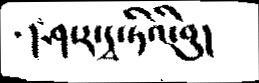།ཤ་ར་དྭ་ཏིའི་བུ།
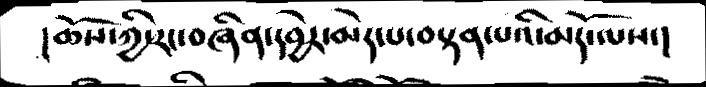།ཆོས་ཀྱི་རང་བཞིན་དབྱེར་མེད་པ་བསྟན་པའི་མདོ་ལས་།
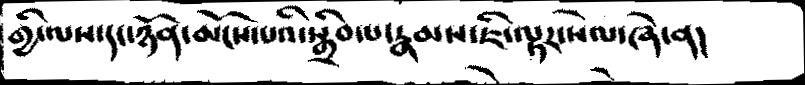གྱི་ལས་དང་ཉོན་མོངས་པའི་སྒྲིབ་པ་རྣམས་ཇི་ལྟར་སེལ་ཞེ་ན།
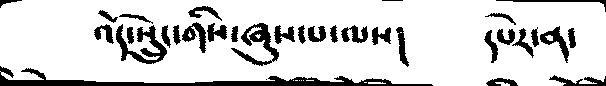འོད་སྲུང་གིས་ཞུས་པ་ལས།    དཔེར་ན་
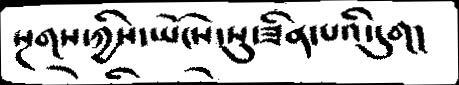སྔགས་ཀྱིས་ཡོངས་སུ་ཟིན་པའི་དུག།
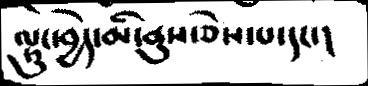ལྟུང་བྱེད་མི་ནུས་ཅེས་པ་དང་།
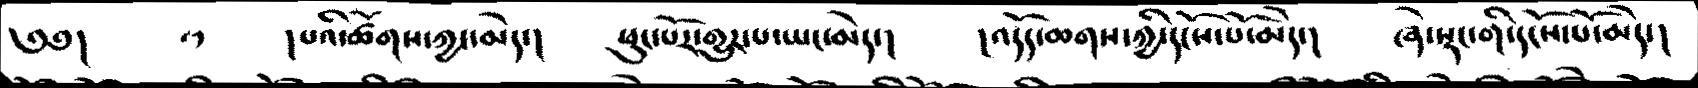༄༅།   ༴    །པའི་ཚོགས་ཀྱང་མེད་།   ཕུང་པོར་གྱུར་པ་ཡང་མེད་།   །འདོད་ཆགས་ཀྱི་དངོས་པོ་མེད་།   ཞེ་སྡང་གི་དངོས་པོ་མེད་།
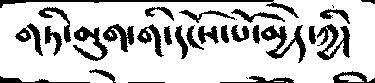གཏི་མུག་གི་དངོས་པོ་མྱེད་ཀྱི།
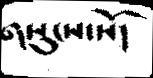གསུངས་སོ།
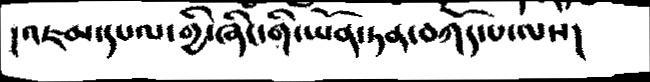།འཇམ་དཔལ་གྱི་ཞིང་གི་ཡོན་ཏན་བཀོད་པ་ལས།
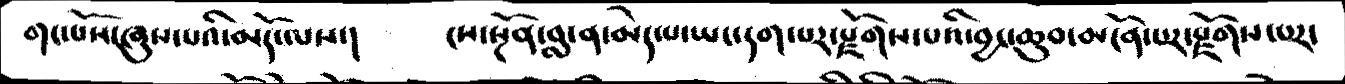གང་པོས་ཞུས་པའི་མདོ་ལས་།   ངས་སྔོན་བླ་ན་མེད་པ་ཡང་དག་པར་རྫོགས་པའི་བྱང་ཆུབ་མངོན་པར་རྫོགས་པར་
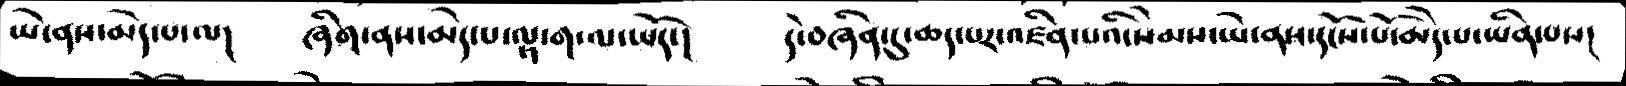ཡེ་ནས་མེད་པ་ལ།   ཞིག་ནས་མེད་པ་ལྟ་ག་ལ་ཡོད་།   དེ་བཞིན་དུ་ཆད་པར་འཛིན་པའི་སེམས་ཡེ་ནས་དངོས་པོ་མེད་པ་ཡིན་པས།
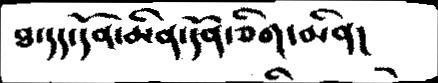ཐ་དད་དོན་མིན་དོན་ཅིག་མིན།
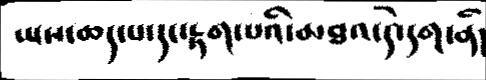ཡས་ཆད་པ་དང་རྟག་པའི་མཐའ་དེ་དག་ནི།
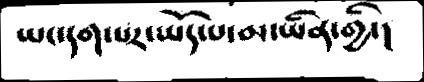ཡང་དག་པར་ཡོད་པ་མ་ཡིན་གྱི་།
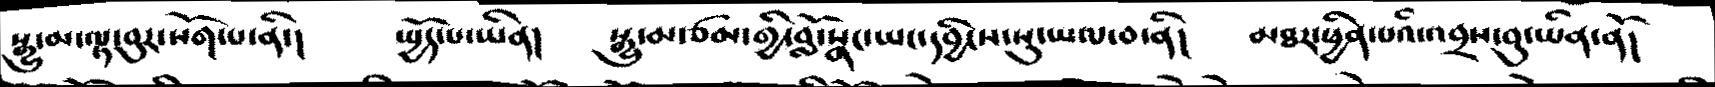སྒྱུ་མ་ལྟ་བུར་སོག་པ་ནི་།   སྤྱོད་པ་ཡིན།   སྒྱུ་མ་ཙམ་གྱི་བློ་སྣང་ཡང་དབྱིངས་སུ་ཡལ་བ་ནི།   མཐར་ཕྱིན་པའི་འབྲས་བུ་ཡིན་ནོ།
